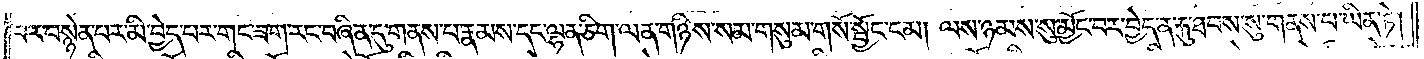པར་བསྙེན་པར་མི་བྱེད་པར་གང་ཟག་རང་བཞིན་དུ་གནས་པ་རྣམས་དང་ལྷན་ཅིག་ལན་གཉིས་སམ་གསུམ་གསོ་སྦྱོང་ངམ། ལས་ཉམས་སུ་མྱོང་བར་བྱེད་ན་རྐུ་ཐབས་སུ་གནས་པ་ཡིན་ཏེ།
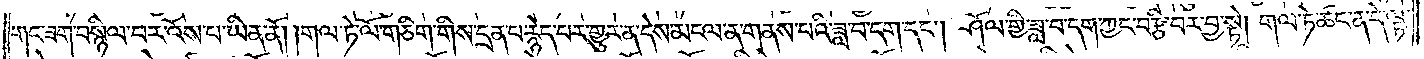གང་ཟག་བསྙིལ་བར་འོས་པ་ཡིན་ནོ། །གལ་ཏེ་ལོ་གཅིག་གིས་དྲན་པ་རྙེད་པར་གྱུར་ན་དེས་མངལ་ན་གནས་པའི་ཟླ་བ་དག་དང༌། ཤོལ་གྱི་ཟླ་བ་དག་ཀྱང་བརྩི་བར་བྱ་སྟེ། གལ་ཏེ་ཚང་ན་དེ་ལྟ་
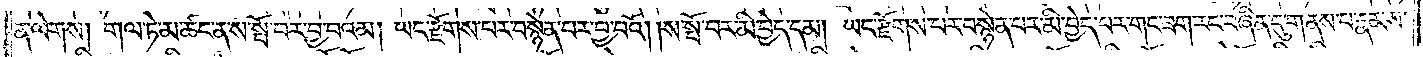ན་ལེགས། གལ་ཏེ་མ་ཚང་ན་ས་སྤོ་བར་བྱ་བའམ། ཡང་རྫོགས་པར་བསྙེན་པར་བྱ་བའོ། །ས་སྤོ་བར་མི་བྱེད་དམ། ཡང་རྫོགས་པར་བསྙེན་པར་མི་བྱེད་པར་གང་ཟག་རང་བཞིན་དུ་གནས་པ་རྣམས་
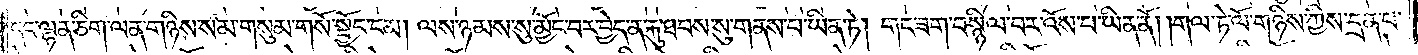དང་ལྷན་ཅིག་ལན་གཉིས་སམ་གསུམ་གསོ་སྦྱོང་ངམ། ལས་ཉམས་སུ་མྱོང་བར་བྱེད་ན་རྐུ་ཐབས་སུ་གནས་པ་ཡིན་ཏེ། གང་ཟག་བསྙིལ་བར་འོས་པ་ཡིན་ནོ། །གལ་ཏེ་ལོ་གཉིས་ཀྱིས་དྲན་པ་
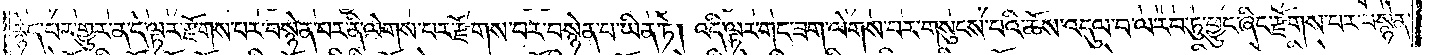རྙེད་པར་གྱུར་ན་དེ་ལྟར་རྫོགས་པར་བསྙེན་པར་ནི་ལེགས་པར་རྫོགས་པར་བསྙེན་པ་ཡིན་ཏེ། འདི་ལྟར་གང་ཟག་ལེགས་པར་གསུངས་པའི་ཆོས་འདུལ་བ་ལ་རབ་ཏུ་ཕྱུང་ཞིང་རྫོགས་པར་བསྙེན་
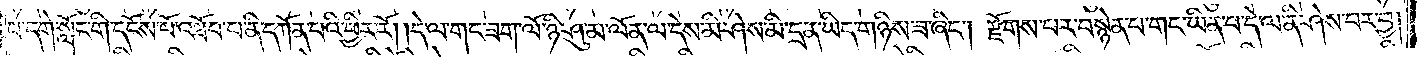པ་དགེ་སློང་གི་དངོས་པོ་འཐོབ་པ་ནི་དཀོན་པའི་ཕྱིར་རོ། །དེ་ལ་གང་ཟག་ལོ་ཉི་ཤུ་མ་ལོན་ལ་དེས་མི་ཤེས་མི་དྲན་ཡིད་གཉིས་ཟ་ཞིང༌། རྫོགས་པར་བསྙེན་པ་གང་ཡིན་པ་དེ་ལ་ནི་ཤེས་པར་བྱ།
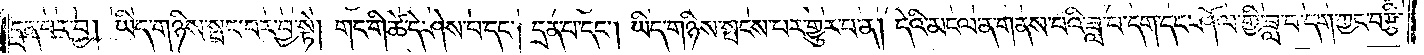དྲན་པར་བྱ། ཡིད་གཉིས་སྤང་བར་བྱ་སྟེ། གང་གི་ཚེ་དེ་ཤེས་པ་དང༌། དྲན་པ་དང༌། ཡིད་གཉིས་སྤངས་པར་གྱུར་པ་ན། དེའི་མངལ་ན་གནས་པའི་ཟླ་བ་དག་དང་ཤོལ་གྱི་ཟླ་བ་དག་ཀྱང་བརྩི་
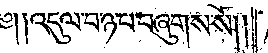༄༎འདུལ་བ་ཉ་པ་བཞུགས་སོ༎
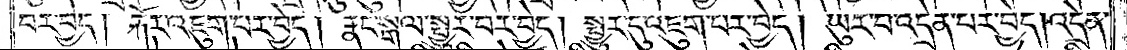བར་བྱེད། རྐོར་འཇུག་པར་བྱེད། རྣང་སྒལ་སྤྱུར་བར་བྱེད། སྤྱུར་དུ་འཇུག་པར་བྱེད། ཡུར་བ་འདྲེན་པར་བྱེད། འདྲེན་
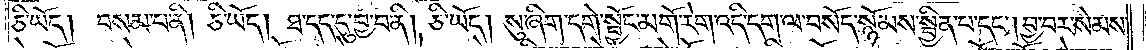ཅི་ཡོད། བསམ་པ་ནི། ཅི་ཡོད། ཐ་དད་དུ་བྱ་བ་ནི། ཅི་ཡོད། སུ་ཞིག་དགེ་སྦྱོང་མགོ་རེག་འདི་དག་ལ་བསོད་སྙོམས་སྦྱིན་པ་དང༌། བྱ་བར་སེམས་
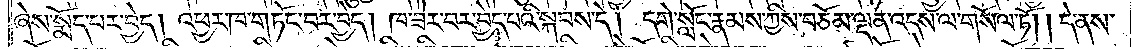ཞེས་སྨོད་པར་བྱེད། འཕྱར་ཁ་གཏོང་བར་བྱེད། ཁ་ཟེར་བར་བྱེད་པའི་སྐབས་དེ། དགེ་སློང་རྣམས་ཀྱིས་བཅོམ་ལྡན་འདས་ལ་གསོལ་ཏོ། །དེ་ནས་
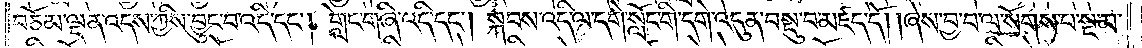བཅོམ་ལྡན་འདས་ཀྱིས་བྱུང་བ་འདི་དང༌། གླེང་གཞི་འདི་དང༌། སྐབས་འདི་ལ་དགེ་སློང་གི་དགེ་འདུན་བསྡུ་བ་མཛད་དོ། །ཞེས་བྱ་བ་ལ་སོགས་པ་སྔ་མ་
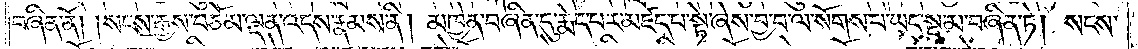བཞིན་ནོ། །སངས་རྒྱས་བཅོམ་ལྡན་འདས་རྣམས་ནི། མཁྱེན་བཞིན་དུ་རྨེད་པར་མཛད་པ་སྟེ་ཞེས་བྱ་བ་ལ་སོགས་པ་ཡང་སྔ་མ་བཞིན་ཏེ། སངས་
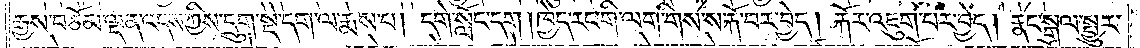རྒྱས་བཅོམ་ལྡན་འདས་ཀྱིས་དྲུག་སྡེ་དག་ལ་རྨས་པ། དགེ་སློང་དག །ཁྱེད་རང་གི་ལག་གིས་ས་རྐོ་བར་བྱེད། རྐོར་འཇུག་པར་བྱེད། རྣང་སྒལ་སྤྱུར་
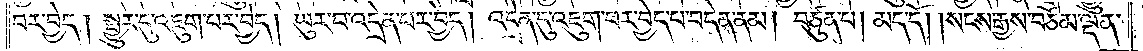པར་བྱེད། སྤྱུར་དུ་འཇུག་པར་བྱེད། ཡུར་བ་འདྲེན་པར་བྱེད། འདྲེན་དུ་འཇུག་པར་བྱེད་པ་བདེན་ནམ། བཙུན་པ། མད་དོ། །སངས་རྒྱས་བཅོམ་ལྡན་
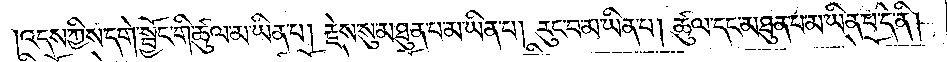འདས་ཀྱིས་དགེ་སྦྱོང་གི་ཚུལ་མ་ཡིན་པ། རྗེས་སུ་མཐུན་པ་མ་ཡིན་པ། རུང་བ་མ་ཡིན་པ། ཚུལ་དང་མཐུན་པ་མ་ཡིན་པ་དེ་ནི།
